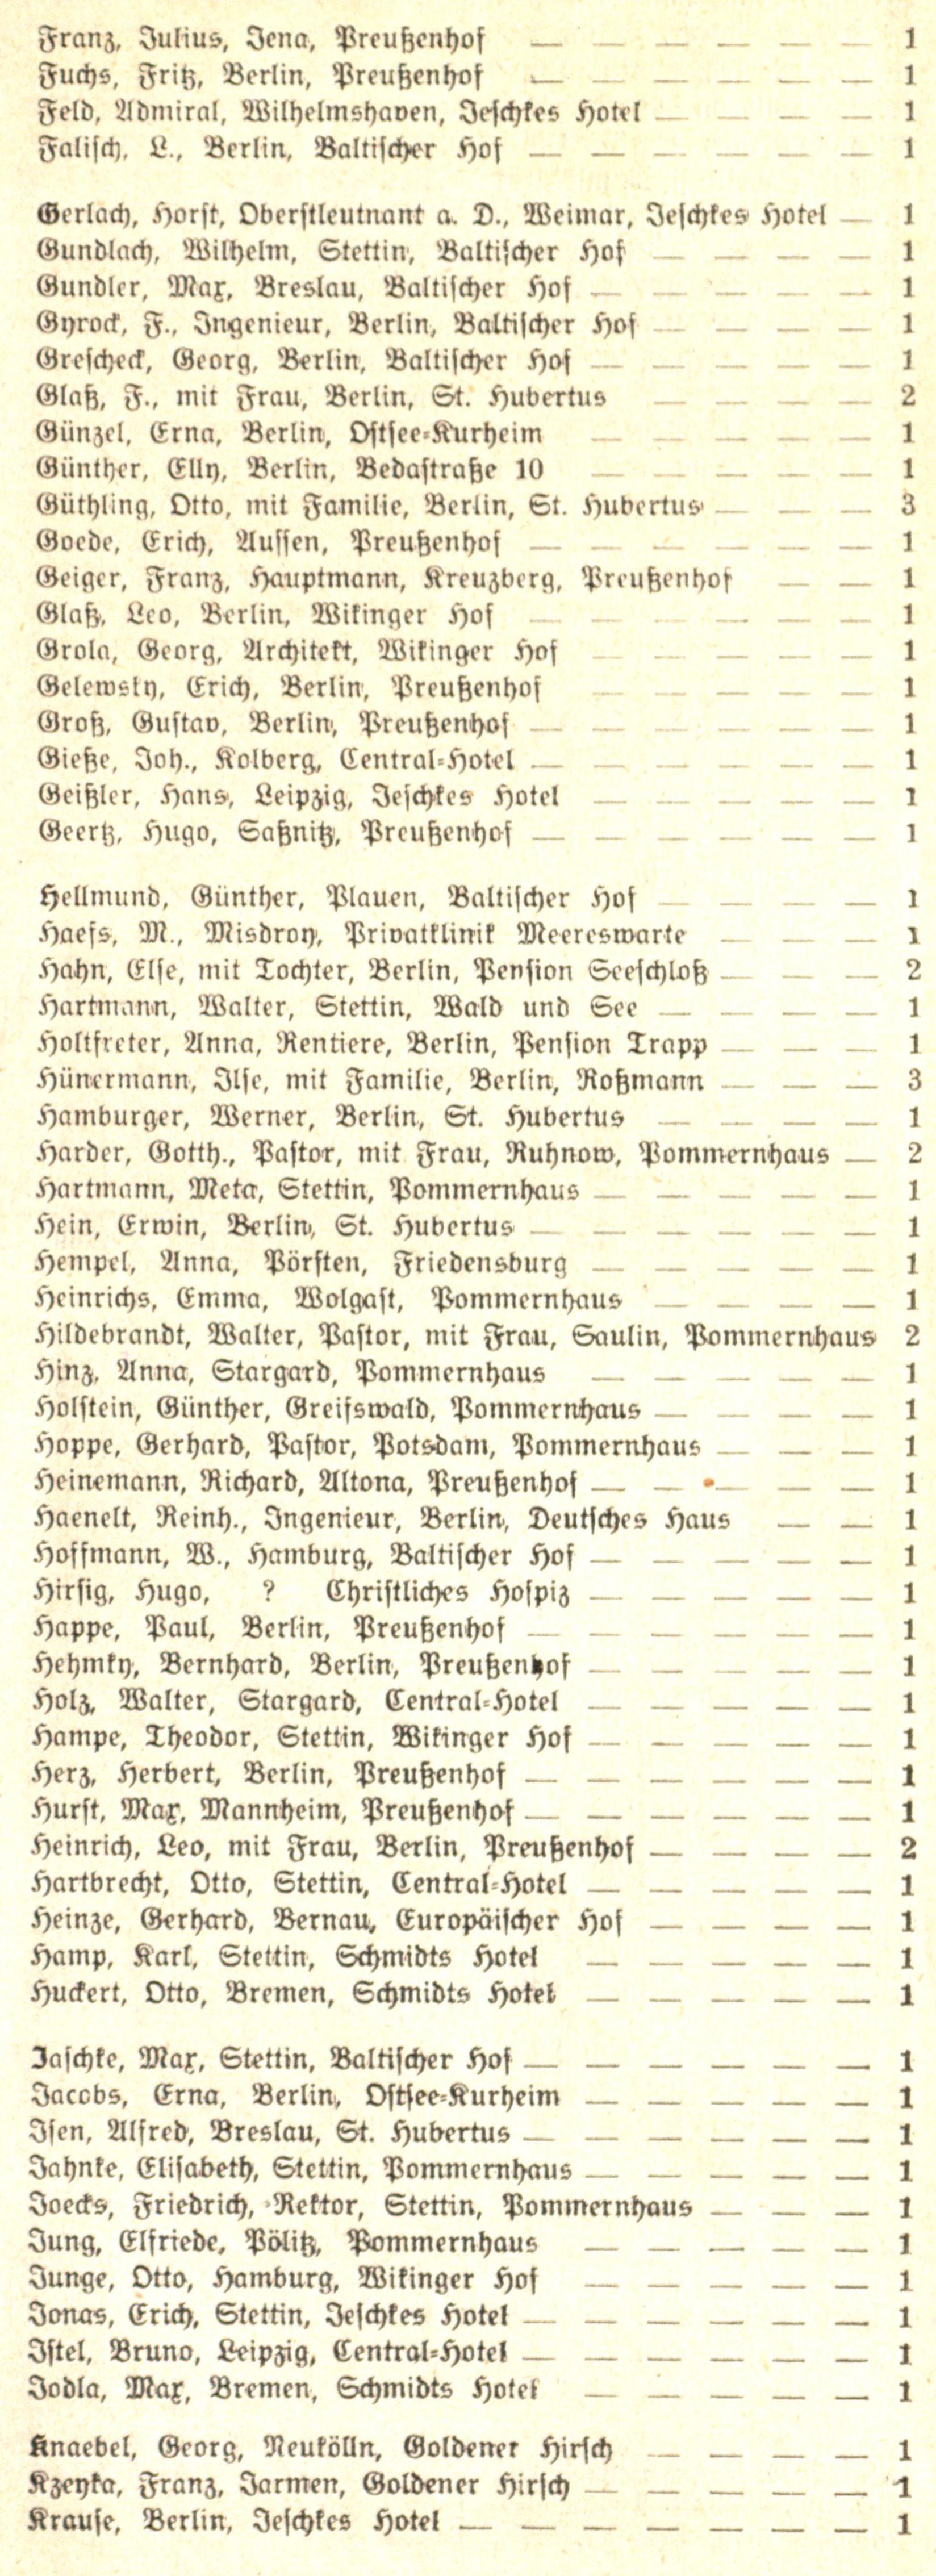Franz, Julius, Jena, Preußenhof | 1
Duchs, Fritz, Berlin, Preußenhof | 1
Feld, Admiral, Wilhelmshaven, Jeschkes Hotel | 1
Felisch, L., Berlin, Baltischer Hof | 1
Gerlach, Horst, Oberstleutnant a. D., Weimar, Jeschkes Hotel | 1
Gundlach, Wilhelm, Stettin, Baltischer Hof | 1
Gundler, Max, Breslau, Baltischer Hof | 1
Gyrock, F., Ingenieur, Berlin, Baltischer Hof | 1
Grescheck, Georg, Berlin, Baltischer Hof | 1
Glaß, D., mit Frau, Berlin, St. Hubertus | 2
Günzel, Erna, Berlin, Ostsee=Kurheim | 1
Günther, Elly, Berlin, Bedastraße 10 | 1
Güthling, Otto, mit Familie, Berlin, St. Hubertus | 3
Goede, Erich, Aussen, Preußenhof | 1
Geiger, Franz, Hauptmann, Kreuzberg, Preußenhof | 1
Glaß, Leo, Berlin, Wikinger Hof | 1
Grola, Georg, Architekt, Wikinger Hof | 1
Gelewsky, Erich, Berlin, Preußenhof | 1
Groß, Gustav, Berlin, Preußenhof | 1
Gieße, Joh., Kolberg, Central=Hotel | 1
Geißler, Hans, Leipzig, Jeschkes Hotel | 1
Geertz, Hugo, Saßnitz, Preußenhof | 1
Hellmund, Günther, Plauen, Baltischer Hof | 1
Haefs, M., Misdroy, Pruvatklinik Meereswarte | 1
Hahn, Else, mit Tochter, Berlin, Pension Seeschlooß | 2
Hartmann, Walter, Stettin, Wald und See | 1
Holtfreter, Anna, Rentiere, Berlin, Pension Trapp | 1
Hünermann, Ilse, mit Familie, Berlin, Koßmann | 3
Hamburger, Werner, Berlin, St. Hubertus | 1
Harder, Gotth., Pastor, mit Frau, Kuhnow, Pommernhaus | 2
Hartmann, Meta, Stettin, Pommernhaus | 1
Hein, Erwin, Berlin, St. Hubertus | 1
Hempel, Anna, Pörsten, Friedensburg | 1
Heinrichs, Emma, Wolgast, Pommernhaus | 1
Hildebrandt, Walter, Pastor, mit Frau, Saulin, Pommernhaus | 2
Hinz, Anna, Stargard, Pommernhaus | 1
Holstein, Günther, Greifswald, Pommernhaus | 1
Hoppe, Gerhard, Pastor, Potsdam, Pommernhaus | 1
Heinemann, Richard, Altona, Preußenhof | 1
Haenelt, Reinh., Ingenieur, Berlin, Deutches Haus | 1
Hoffmann, W., Hamburg, Baltischer Hof | 1
Hirsig, Hugo, ? Christliches Hospiz | 1
Happe, Paul, Berlin, Preußenhof | 1
Hehmky, bernhard, Berlin, Preußenhof | 1
Holz, Walter, Stargard, Central=Hotel | 1
Hampe, Theodor, Stettin, Wikinger Hof | 1
Herz, Herbert, Berlin, Preußenhof | 1
Hurst, Max, Mannheim, Preußenhof | 1
Heinrich, Leo, mit Frau, Berlin, Preußenhof | 2
Hartbrecht, Otto, Stettin, Central=Hotel | 1
Heinze, Gerhard, Bernau, Europäischer Hof | 1
Hamp, Karl, Stettin, Schmidts Hotel | 1
Huckert, Otto, Bremen, Schmidts Hotel | 1
Jaschke, Max, Stettin, Baltischer Hof | 1
Jacobs, Erna, Berlin, Ostsee=Kurheim | 1
Isen, Alfred, Breslau, St. Hubertus | 1
Jahnke, Elisabeth, Stettin, Pommernhaus | 1
Joecks, Friedrich, Rektor, Stettin, Pommernhaus | 1
Jung, Elfriede, Pölitz, Pommernhaus | 1
Junge, Otto, Hamburg, Wikinger Hof | 1
Jonas, Erich, Stettin, Jeschkes Hotel | 1
Istel, Bruno, Leipzig, Central=Hotel | 1
Jodla, Max, Bremen, Schmidts Hotel | 1
Knaebel, Georg, Neukölln, Goldener Hirsch | 1
Kzeyka, Franz, Jarmen, Goldener Hirsch | 1
Krause, Berlin, Jeschkes Hotel | 1
